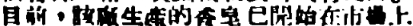目前，該廠生產地香皂已開始在市場上
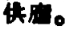供應。
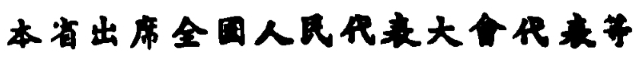本省出席全國人民代表大會代表等
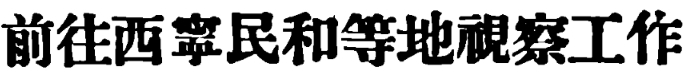前往西寧民和等地視察工作
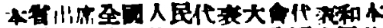本省出席全國人民代表大會代表和本
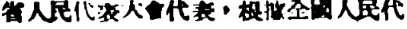省人民代表大會代表，根據全國人民代
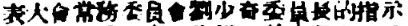表大會常務委員會劉少奇委員長的指示
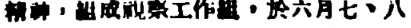精神，組成視察工作組，於六月七、八
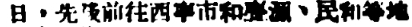日，先後前往西寧市和亹源、民和等地
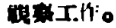視察工作。
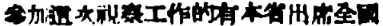參加這次視察工作的有本省出席全國
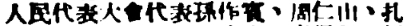人民代表大會代表孫作賓、周仁山、扎
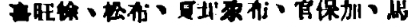喜旺徐、松布、夏茸尕布、官保加、馬
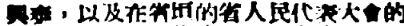興泰，以及在省垣的省人民代表大會的
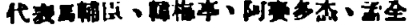代表馬輔臣、韓梅亭、阿賽多杰、孟全
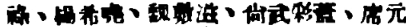祿、楊希堯、魏敷滋、尚武彩蓋、席元
